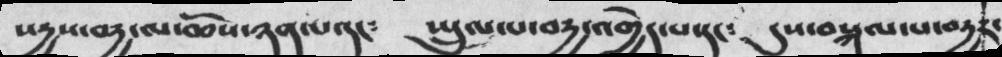སདྱས་བདྱ་ལ་ཆོས་ཉན་པ་དང༴   སྤྲུལ་པ་བདྱ་འགྱེད་པ་དང༴   དུས་བསྐལ་པ་བདྱར་
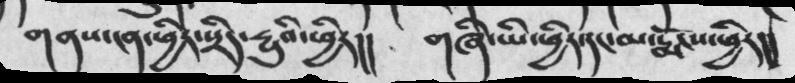གནས་ངན་ཕྱིར་སྲིད་དྱུའི་ཕྱིར།།    གཞི་ཡི་ཕྱིར་དང་མ་རྨོངས་ཕྱིར།།
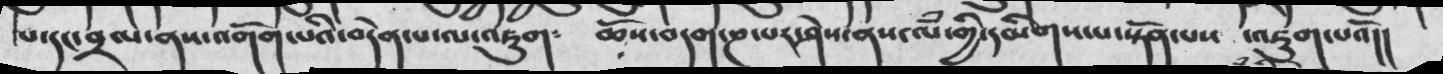པ་དང་བྲལ་ནས་འགོག་པའི་བདེན་པ་ལ་འཇུག༴  ཆོས་བདག་ཎ་པར་ཤེས་ནས་ལཾ་གྱི་དམིགས་པ་སྟོན་པས ་འཇུག་པའོ།།
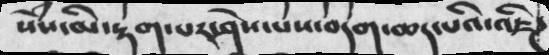སེཾས་མི་རྟག་པར་ཤེས་པས་བདག་ཆད་པའི་འཇིཌ
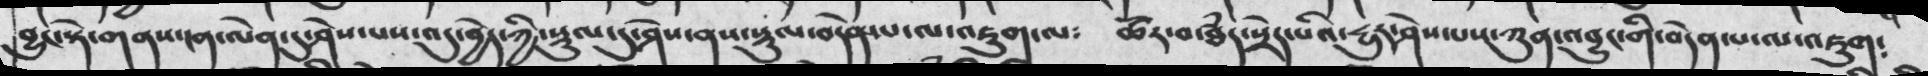བྱུང་སྟེ་གནས་ངན་ལེན་དུ་ཤེས་པས་འདུ་བྱེད་ཀྱི་སྡུལ་དུ་ཤེས་ནས་སྡུལ་བདེན་པ་ལ་འཇུག་ལ༴  ཚོར་བ་ཐཾད་སྲེད་པའི་དྱུར་ཤེས་པས་ཀུན་འབྱུང་གི་བདེན་པ་ལ་འཇུག༴
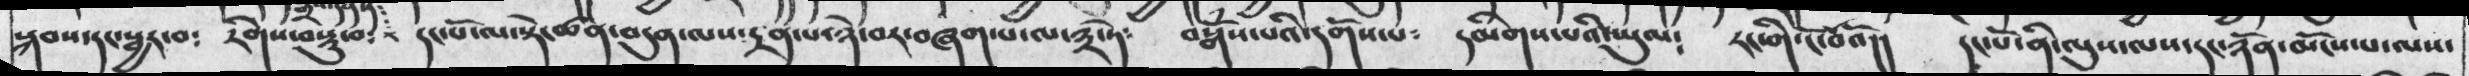སྐབས་དང་སྦྱར་བ༴   རིགས་བསྡུ་བ་  དང་པོ་ལ་སྡེ་་ཚན་བདུན་ལས་དྲན་པ་ཉེ་བར་བཞག་པ་ལ་༣་ཏེ༴   བསྒོས་པའི་དགོས་པ་   དམིགས་པའི་ཡུལ༴ རང་གི་ངོ་བོའོ།།   དང་པོ་ནི་ལུས་ལས་དང་ཉོན་མོངས་པ་ལས་
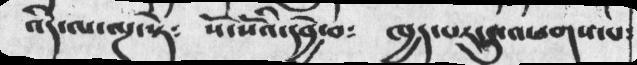འདི་ལ་ལྔ་སྟེ༴  སོ་སོའི་དབྱེ་བ༴   ཁྱད་པར་དུ་འཕགས་པ༴
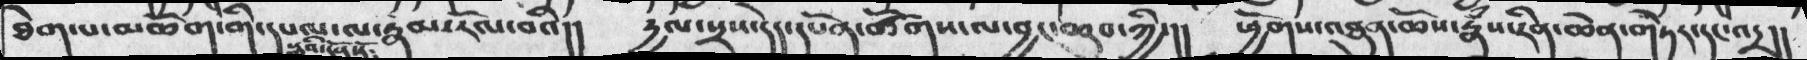ཐེག་པ་མཆོག་གི་དཔལ་ལ་རྣམ་རོལ་བའི།།   རྱལ་སྲས་དེད་དཔོན་ཚོགས་ལ་བྱང་ཆུབ་ཀྱི་།།   ཕྱོགས་མཐུན་ཆོས་རྣཾས་རིན་ཆེན་གཏེར་དང་འདྲ།།
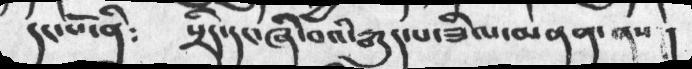དང་པོ་ནི༴     སྲིད་དང་ཞི་བའི་རྒུད་པ་ཟིལ་མནན་ནས །
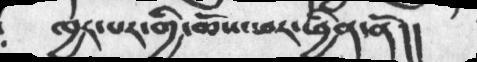ཁྱད་པར་གྱི་ཆོས་ཕར་ཕྱིན་ནོ།།
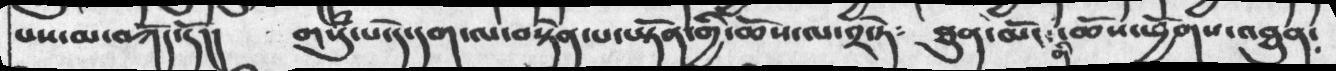པས་མ་བཀོད་དོ།།    གསུཾ་པ་དེ་དག་ལ་བསྟེན་པ་ཡྟོན་གྱི་ཆོས་ལ་༢་ཏེ༴    ཐུན་མོང་གི་ཆོས་ཕྱོགས་འཐུན་
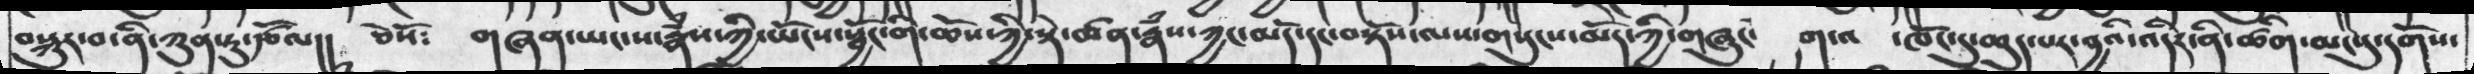བསྐུར་བ་ནི་ཀུན་ཏུ་རྩོལ།།   ཅེསོ༴  གཞན་ཡངས་རྣཾས་ཀྱི་ཡོངས་སྦྱོང་གི་ཆོས་ཀྱི་སྡེ་ཚན་རྣཾས་ཀྱང་མདོ་དང་བསྟོས་ལས་གསུངས་མོད་ཀྱི་གཞུང་དེ་དག་ལ་ཁོང་དུ་ཆུད་པར་བྱའི་འདིར་ནི་ཚིག་མངསུ་དགོས་
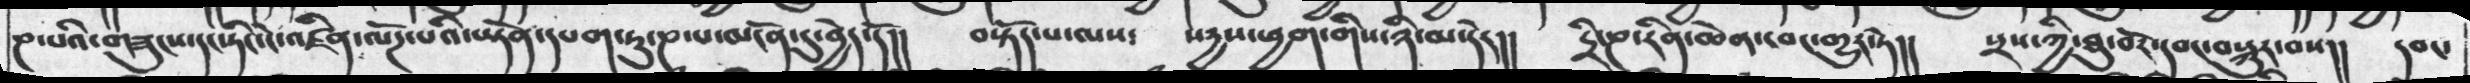ཎ་པའི་གཟུངས་དང་ཏིང་ངེ་འཛིན་ལོཌ་པའི་ཡྟོན་དཔག་ཏུ་ཎ་པ་མངོན་དུ་བྱེད་དོ།།    བསྟོད་པ་ལས༴   སདྱས་ཕྱག་གིས་ཉི་མ་རེར།།  དྲི་ཎ་རིན་ཆེན་དབང་གྱུར་ཏེ།།   སྲས་ཀྱི་ཐུ་བོར་དབང་བསྐུར་བས།།  དབང་
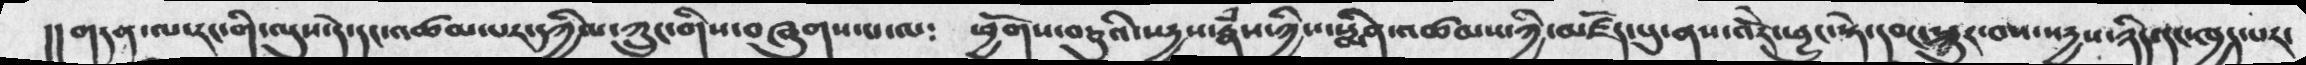།།གདན་ལ་རང་གི་ལུས་དེ་དང་འཚམ་པར་དཀྱིལ་ཀྲུང་གིས་བཞུགས་པ་ལ༴  ཕྱོགས་བཅུའི་སདྱས་རྣཾས་ཀྱིས་སྨིན་འཚམས་ཀྱི་མཛོད་པུ་ནས་འོེར་ཕྱུང་སྟེ་དབང་སྐུར་བས་སདྱས་ཉིད་དང་ཁྱད་པར་
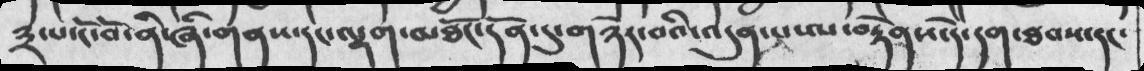༣་པ་ངོ་བོ་ནི་ཞི་གནས་དང་ལྷག་མཐོང་དོན་དུ་གཉེར་བའི་འདུན་པ་ལ་བརྟེནས་དེ་དག་ཐབས་དང་
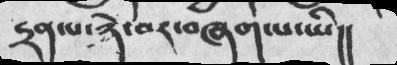དྲན་པ་ཉེ་བར་བཞག་པ་ཡི།།
